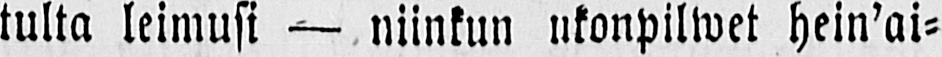tulta leimusi — niinkuu ukonpilwet hein'ai-
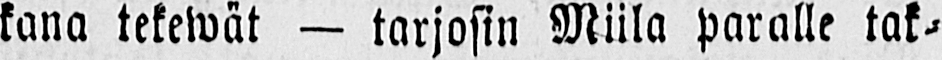kana tekewät — tarjosin Miila paralle tak-
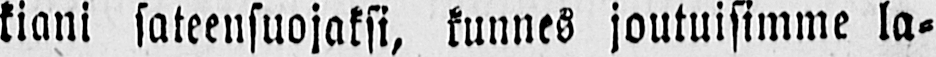kiani sateensuojaksi, kunnes joutuisimme la-
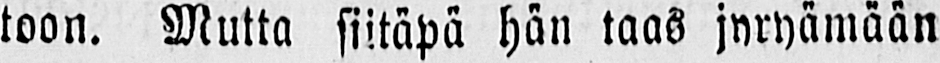toon. Mutta siitäpä hän taas jyryämään
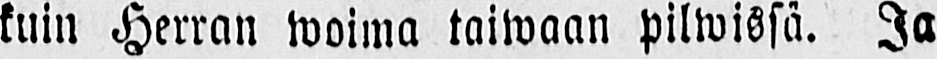kuin Herran woima taiwaan pilwissä. Ja
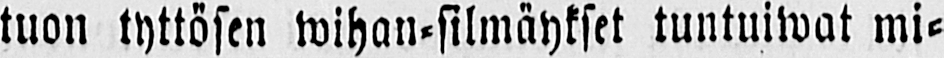tuon tyttösen wihan-silmäykset tuntuiwat mi-
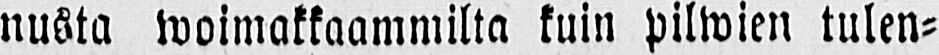nusta woimakkaammilta kuin pilwien tulen-
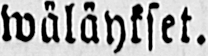wäläykset.
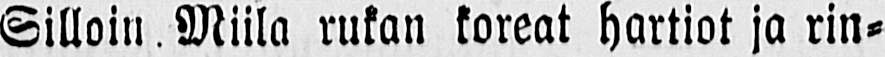Silloin, Miila rukan koreat hartiat ja rin-
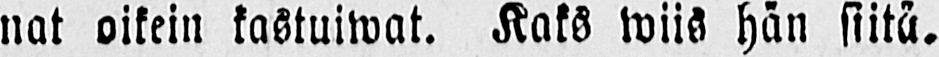nat oikein kastuiwat. Kaks wiis hän siitä.
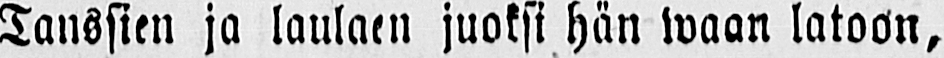Tanssien ja laulaen juoksi hän waan latoon,
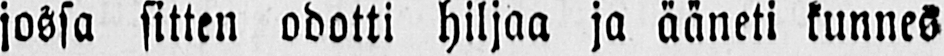jossa sitten odotti hiljaa ja ääneti kunnes
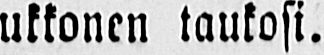ukkonen taukosi.
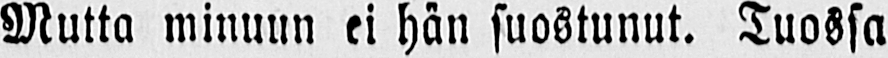Mutta minuun ei hän suostunut. Tuossa
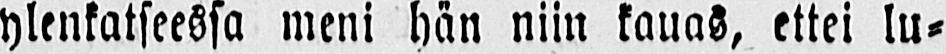ylenkatseessa meni hän niin kauas, ettei lu-
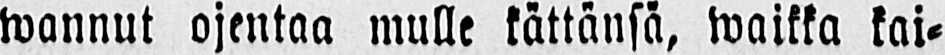wannut ojentaa mulle kättänsä, waikka kai-
